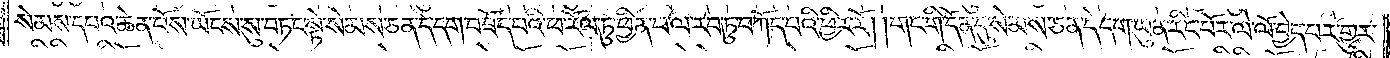སེམས་དཔའ་ཆེན་པོས་ཡོངས་སུ་བཏང་སྟེ་སེམས་ཅན་དེ་དག་བཟོད་པའི་ཕ་རོལ་ཏུ་ཕྱིན་པ་ལ་རབ་ཏུ་བཀོད་པའི་ཕྱིར་རོ། །གང་གི་དོན་དུ་སེམས་ཅན་དེ་དག་ཡུན་རིང་པོར་ལེ་ལོ་བྱེད་པར་གྱུར་
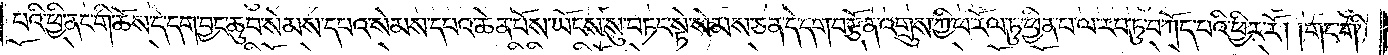པའི་ཕྱི་ནང་གི་ཆོས་དེ་དག་བྱང་ཆུབ་སེམས་དཔའ་སེམས་དཔའ་ཆེན་པོས་ཡོངས་སུ་བཏང་སྟེ་སེམས་ཅན་དེ་དག་བརྩོན་འགྲུས་ཀྱི་ཕ་རོལ་ཏུ་ཕྱིན་པ་ལ་རབ་ཏུ་བཀོད་པའི་ཕྱིར་རོ། །གང་གི་
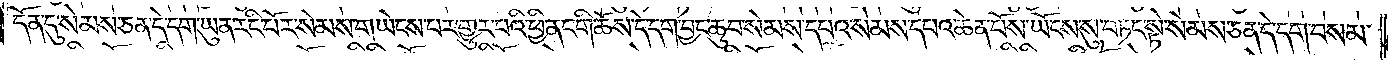དོན་དུ་སེམས་ཅན་དེ་དག་ཡུན་རིང་པོར་སེམས་གཡེངས་པར་གྱུར་པའི་ཕྱི་ནང་གི་ཆོས་དེ་དག་བྱང་ཆུབ་སེམས་དཔའ་སེམས་དཔའ་ཆེན་པོས་ཡོངས་སུ་བཏང་སྟེ་སེམས་ཅན་དེ་དག་བསམ་
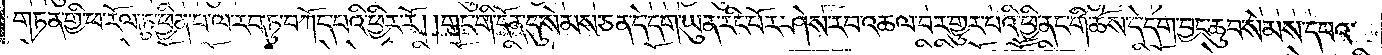གཏན་གྱི་ཕ་རོལ་ཏུ་ཕྱིན་པ་ལ་རབ་ཏུ་བཀོད་པའི་ཕྱིར་རོ། །གང་གི་དོན་དུ་སེམས་ཅན་དེ་དག་ཡུན་རིང་པོར་ཤེས་རབ་འཆལ་བར་གྱུར་པའི་ཕྱི་ནང་གི་ཆོས་དེ་དག་བྱང་ཆུབ་སེམས་དཔའ་
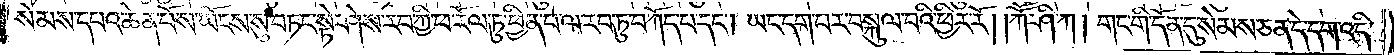སེམས་དཔའ་ཆེན་པོས་ཡོངས་སུ་བཏང་སྟེ་ཤེས་རབ་ཀྱི་ཕ་རོལ་ཏུ་ཕྱིན་པ་ལ་རབ་ཏུ་བཀོད་པ་དང༌། ཡང་དག་པར་བསྐུལ་བའི་ཕྱིར་རོ། །ཀཽ་ཤི་ཀ། གང་གི་དོན་དུ་སེམས་ཅན་དེ་དག་འདི་
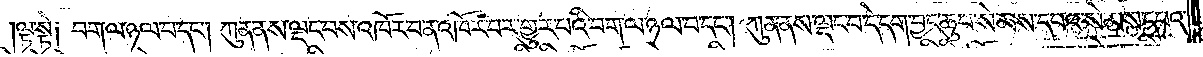ལྟ་སྟེ། བག་ལ་ཉལ་བ་དང༌། ཀུན་ནས་ལྡང་བས་འཁོར་བ་ན་འཁོར་བར་གྱུར་པའི་བག་ལ་ཉལ་བ་དང༌། ཀུན་ནས་ལྡང་བ་དེ་དག་བྱང་ཆུབ་སེམས་དཔའ་སེམས་དཔའ་
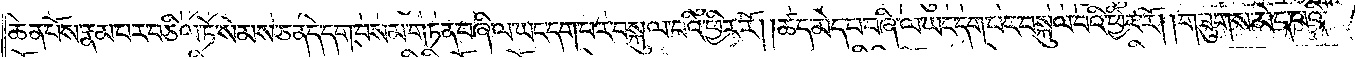ཆེན་པོས་རྣམ་པར་བརྩལ་ཏེ་སེམས་ཅན་དེ་དག་བསམ་གཏན་བཞི་ལ་ཡང་དག་པར་བསྐུལ་བའི་ཕྱིར་རོ། །ཚད་མེད་པ་བཞི་ལ་ཡང་དག་པར་བསྐུལ་བའི་ཕྱིར་རོ། །གཟུགས་མེད་པའི་
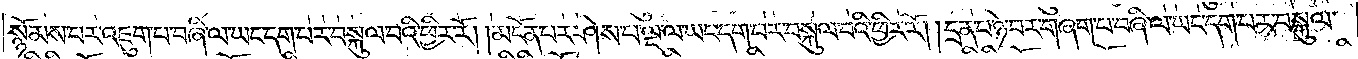སྙོམས་པར་འཇུག་པ་བཞི་ལ་ཡང་དག་པར་བསྐུལ་བའི་ཕྱིར་རོ། །མངོན་པར་ཤེས་པ་ལྔ་ལ་ཡང་དག་པར་བསྐུལ་བའི་ཕྱིར་རོ། །དྲན་པ་ཉེ་བར་གཞག་པ་བཞི་ལ་ཡང་དག་པར་བསྐུལ་
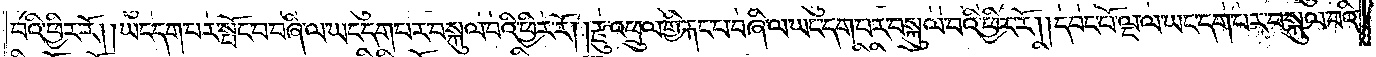བའི་ཕྱིར་རོ། །ཡང་དག་པར་སྤོང་བ་བཞི་ལ་ཡང་དག་པར་བསྐུལ་བའི་ཕྱིར་རོ། །རྫུ་འཕྲུལ་གྱི་རྐང་པ་བཞི་ལ་ཡང་དག་པར་བསྐུལ་བའི་ཕྱིར་རོ། །དབང་པོ་ལྔ་ལ་ཡང་དག་པར་བསྐུལ་བའི་
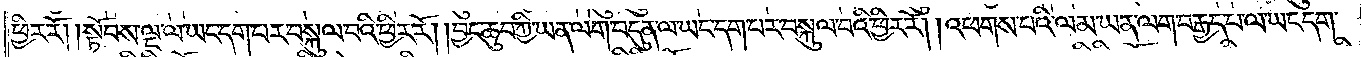ཕྱིར་རོ༎ སྟོབས་ལྔ་ལ་ཡང་དག་པར་བསྐུལ་བའི་ཕྱིར་རོ། །བྱང་ཆུབ་ཀྱི་ཡན་ལག་བདུན་ལ་ཡང་དག་པར་བསྐུལ་བའི་ཕྱིར་རོ། །འཕགས་པའི་ལམ་ཡན་ལག་བརྒྱད་པ་ལ་ཡང་དག་
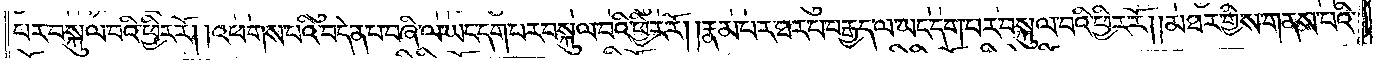པར་བསྐུལ་བའི་ཕྱིར་རོ། །འཕགས་པའི་བདེན་པ་བཞི་ལ་ཡང་དག་པར་བསྐུལ་བའི་ཕྱིར་རོ། །རྣམ་པར་ཐར་པ་བརྒྱད་ལ་ཡང་དག་པར་བསྐུལ་བའི་ཕྱིར་རོ། །མཐར་གྱིས་གནས་པའི་
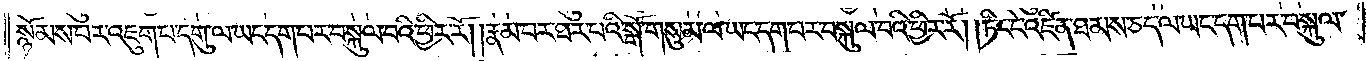སྙོམས་པར་འཇུག་པ་དགུ་ལ་ཡང་དག་པར་བསྐུལ་བའི་ཕྱིར་རོ། །རྣམ་པར་ཐར་པའི་སྒོ་གསུམ་ལ་ཡང་དག་པར་བསྐུལ་བའི་ཕྱིར་རོ། །ཏིང་ངེ་འཛིན་ཐམས་ཅད་ལ་ཡང་དག་པར་བསྐུལ་
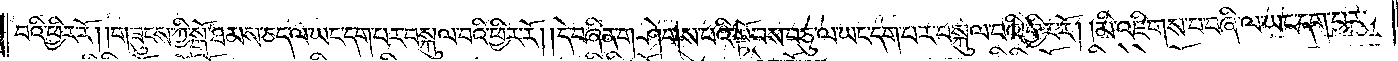བའི་ཕྱིར་རོ། །གཟུངས་ཀྱི་སྒོ་ཐམས་ཅད་ལ་ཡང་དག་པར་བསྐུལ་བའི་ཕྱིར་རོ། །དེ་བཞིན་གཤེགས་པའི་སྟོབས་བཅུ་ལ་ཡང་དག་པར་བསྐུལ་བའི་ཕྱིར་རོ། །མི་འཇིགས་པ་བཞི་ལ་ཡང་དག་པར་
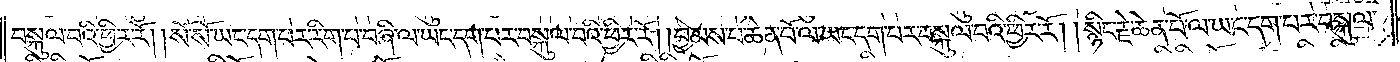བསྐུལ་བའི་ཕྱིར་རོ། །སོ་སོ་ཡང་དག་པར་རིག་པ་བཞི་ལ་ཡང་དག་པར་བསྐུལ་བའི་ཕྱིར་རོ། །བྱམས་པ་ཆེན་པོ་ལ་ཡང་དག་པར་བསྐུལ་བའི་ཕྱིར་རོ། །སྙིང་རྗེ་ཆེན་པོ་ལ་ཡང་དག་པར་བསྐུལ་
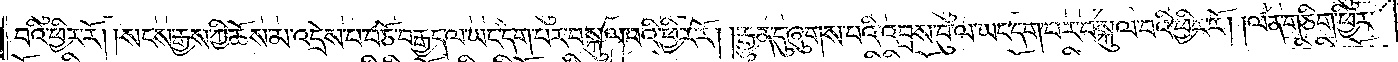བའི་ཕྱིར་རོ། །སངས་རྒྱས་ཀྱི་ཆོས་མ་འདྲེས་པ་བཅོ་བརྒྱད་ལ་ཡང་དག་པར་བསྐུལ་བའི་ཕྱིར་རོ། །རྒྱུན་དུ་ཞུགས་པའི་འབྲས་བུ་ལ་ཡང་དག་པར་བསྐུལ་བའི་ཕྱིར་རོ། །ལན་གཅིག་ཕྱིར་
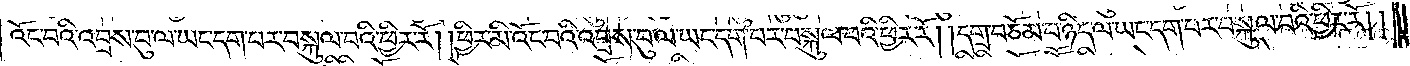འོང་བའི་འབྲས་བུ་ལ་ཡང་དག་པར་བསྐུལ་བའི་ཕྱིར་རོ། །ཕྱིར་མི་འོང་བའི་འབྲས་བུ་ལ་ཡང་དག་པར་བསྐུལ་བའི་ཕྱིར་རོ། །དགྲ་བཅོམ་པ་ཉིད་ལ་ཡང་དག་པར་བསྐུལ་བའི་ཕྱིར་རོ། །
